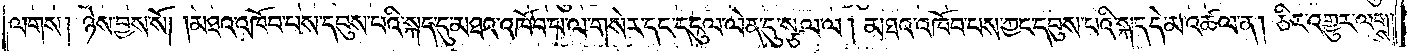ལགས། ཉེས་བྱས་སོ། །མཐའ་འཁོབ་པས་དབུས་པའི་སྐད་དུ་མཐའ་འཁོབ་པ་ལ་གསེར་དང་དངུལ་ལེན་དུ་སྩལ་ལ། མཐའ་འཁོབ་པས་ཀྱང་དབུས་པའི་སྐད་དེ་མ་འཚལ་ན། ཅིར་འགྱུར་ལགས།
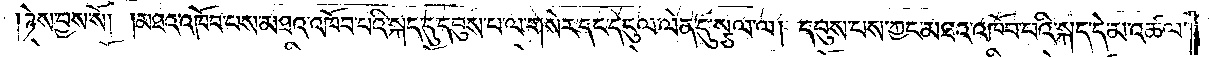ཉེས་བྱས་སོ། །མཐའ་འཁོབ་པས་མཐའ་འཁོབ་པའི་སྐད་དུ་དབུས་པ་ལ་གསེར་དང་དངུལ་ལེན་དུ་སྩལ་ལ། དབུས་པས་ཀྱང་མཐའ་འཁོབ་པའི་སྐད་དེ་མ་འཚལ་
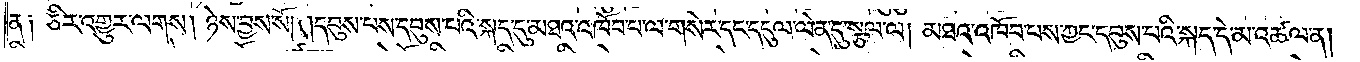ན༑ ཅིར་འགྱུར་ལགས། ཉེས་བྱས་སོ། །དབུས་པས་དབུས་པའི་སྐད་དུ་མཐའ་འཁོབ་པ་ལ་གསེར་དང་དངུལ་ལེན་དུ་སྩལ་ལ། མཐའ་འཁོབ་པས་ཀྱང་དབུས་པའི་སྐད་དེ་མ་འཚལ་ན།
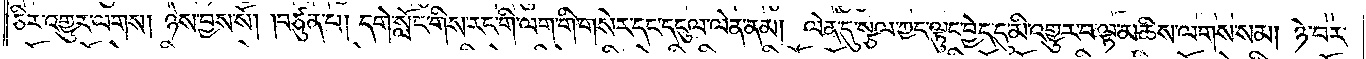ཅིར་འགྱུར་ལགས། ཉེས་བྱས་སོ། །བཙུན་པ། དགེ་སློང་གིས་རང་གི་ལག་གི་གསེར་དང་དངུལ་ལེན་ནམ། ལེན་དུ་སྩལ་ཀྱང་ལྟུང་བྱེད་དུ་མི་འགྱུར་བ་ལྟ་མཆིས་ལགས་སམ། ཉེ་བར་
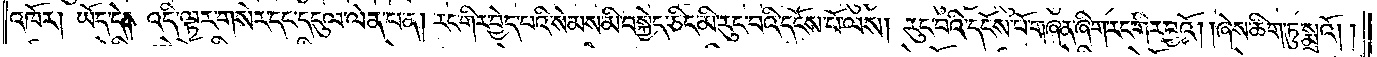འཁོར། ཡོད་དེ། འདི་ལྟར་གསེར་དང་དངུལ་ལེན་པ་ན། རང་གིར་བྱེད་པའི་སེམས་མི་བསྐྱེད་ཅིང་མི་རུང་བའི་དངོས་པོ་ལས། རུང་བའི་དངོས་པོ་གཞན་ཞིག་རང་གིར་བྱའོ། །ཞེས་ཚིག་ཏུ་སྨྲའོ། །
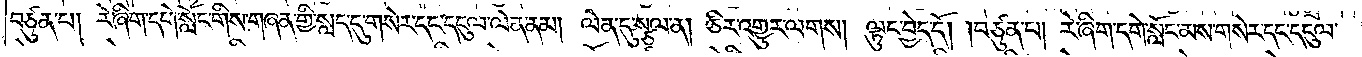བཙུན་པ། རེ་ཞིག་དགེ་སློང་གིས་གཞན་གྱི་སླད་དུ་གསེར་དང་དངུལ་ལེན་ནམ། ལེན་དུ་སྩལ་ན། ཅིར་འགྱུར་ལགས། ལྟུང་བྱེད་དོ། །བཙུན་པ། རེ་ཞིག་དགེ་སློང་མས་གསེར་དང་དངུལ་
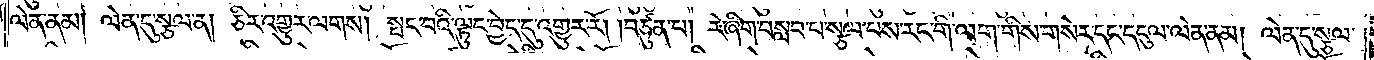ལེན་ནམ། ལེན་དུ་སྩལ་ན། ཅིར་འགྱུར་ལགས། སྤང་བའི་ལྟུང་བྱེད་དུ་འགྱུར་རོ། །བཙུན་པ། རེ་ཞིག་བསླབ་པ་སྩལ་པས་རང་གི་ལག་གིས་གསེར་དང་དངུལ་ལེན་ནམ། ལེན་དུ་སྩལ་
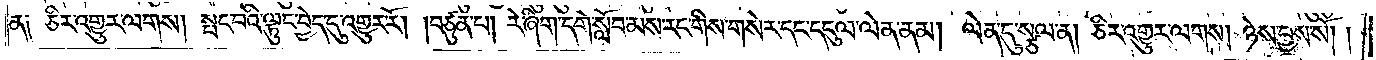ན༑ ཅིར་འགྱུར་ལགས། སྤང་བའི་ལྟུང་བྱེད་དུ་འགྱུར་རོ། །བཙུན་པ། རེ་ཞིག་དགེ་སློབ་མས་རང་གིས་གསེར་དང་དངུལ་ལེན་ནམ། ལེན་དུ་སྩལ་ན། ཅིར་འགྱུར་ལགས། ཉེས་བྱས་སོ། །
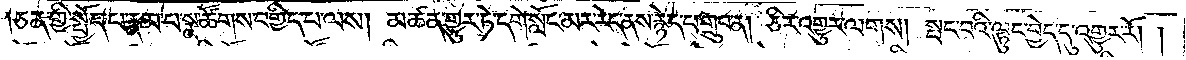།ཅན་གྱི་སྤྱོད་པ་རྣམ་པ་སྣ་ཚོགས་བགྱིད་པ་ལས། མཚན་གྱུར་ཏེ་དགེ་སློང་མར་རེད་ནས་རྙེད་པ་གྲུབ་ན། ཅིར་འགྱུར་ལགས། སྤང་བའི་ལྟུང་བྱེད་དུ་འགྱུར་རོ། །
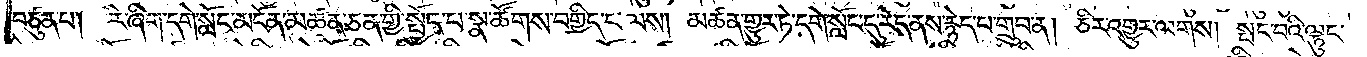བཙུན་པ། རེ་ཞིག་དགེ་སློང་མངོན་མཚན་ཅན་གྱི་སྤྱོད་པ་སྣ་ཚོགས་བགྱིད་པ་ལས། མཚན་གྱུར་ཏེ་དགེ་སློང་དུ་རེད་ནས་རྙེད་པ་གྲུབ་ན། ཅིར་འགྱུར་ལགས། སྤང་བའི་ལྟུང་
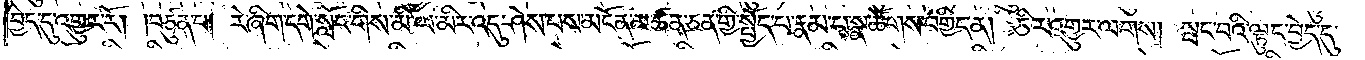བྱེད་དུ་འགྱུར་རོ། །བཙུན་པ། རེ་ཞིག་དགེ་སློང་གིས་མི་ལ་མིར་འདུ་ཤེས་པས་མངོན་མཚན་ཅན་གྱི་སྤྱོད་པ་རྣམ་པ་སྣ་ཚོགས་བགྱིད་ན། ཅིར་འགྱུར་ལགས། སྤང་བའི་ལྟུང་བྱེད་དུ་
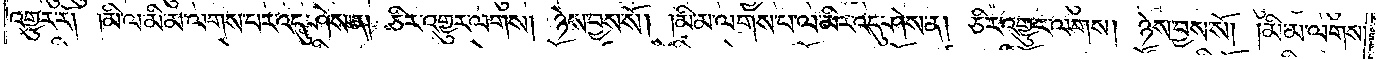འགྱུར་རོ། །མི་ལ་མི་མ་ལགས་པར་འདུ་ཤེས་ན། ཅིར་འགྱུར་ལགས། ཉེས་བྱས་སོ། །མི་མ་ལགས་པ་ལ་མིར་འདུ་ཤེས་ན། ཅིར་འགྱུར་ལགས། ཉེས་བྱས་སོ། །མི་མ་ལགས་
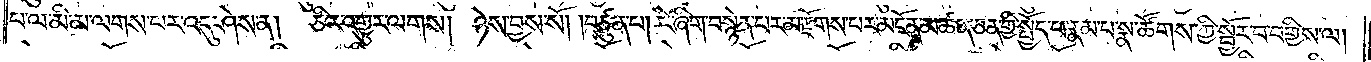པ་ལ་མི་མ་ལགས་པར་འདུ་ཤེས་ན། ཅིར་འགྱུར་ལགས། ཉེས་བྱས་སོ། །བཙུན་པ། རེ་ཞིག་བསྙེན་པར་མ་རྫོགས་པར་མངོན་མཚན་ཅན་གྱི་སྤྱོད་པ་རྣམ་པ་སྣ་ཚོགས་ཀྱི་སྦྱོར་པ་བགྱིས་ལ།
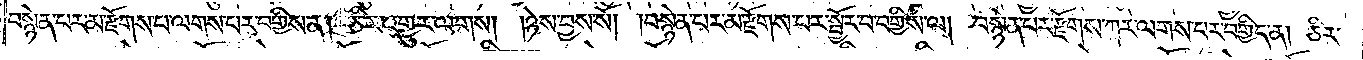བསྙེན་པར་མ་རྫོགས་པ་ལགས་པ་བགྱིས་ན། ཅིར་འགྱུར་ལགས། །ཉེས་བྱས་སོ། །བསྙེན་པར་མ་རྫོགས་པར་སྦྱོར་བ་བགྱིས་ལ། བསྙེན་པར་རྫོགས་ཀར་ལགས་པར་བགྱིད་ན། ཅིར་
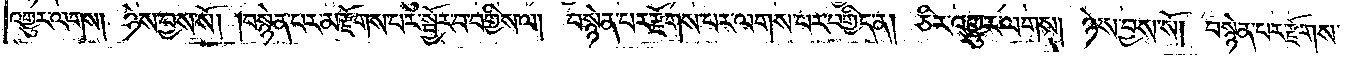འགྱུར་ལགས། ཉེས་བྱས་སོ། །བསྙེན་པར་མ་རྫོགས་པར་སྦྱོར་བ་བགྱིས་ལ། བསྙེན་པར་རྫོགས་པར་ལགས་པར་བགྱིད་ན། ཅིར་འགྱུར་ལགས། ཉེས་བྱས་སོ། བསྙེན་པར་རྫོགས་
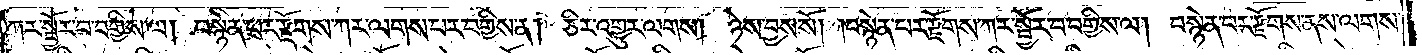ཀར་སྦྱོར་བ་བགྱིས་ལ། བསྙེན་པར་རྫོགས་ཀར་ལགས་པར་བགྱིས་ན། ཅིར་འགྱུར་ལགས། ཉེས་བྱས་སོ། །བསྙེན་པར་རྫོགས་ཀར་སྦྱོར་བ་བགྱིས་ལ། བསྙེན་པར་རྫོགས་ནས་ལགས་
